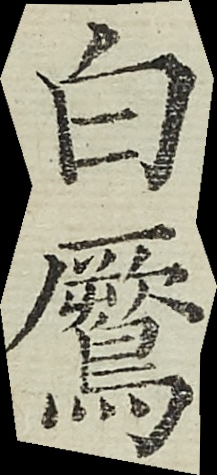白鷢
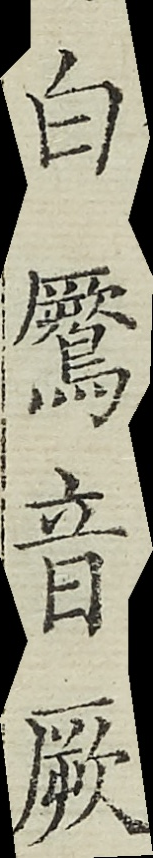白鷢音厥
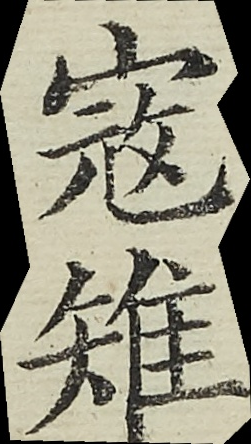寇雉
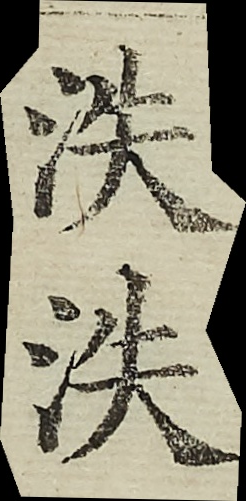泆泆
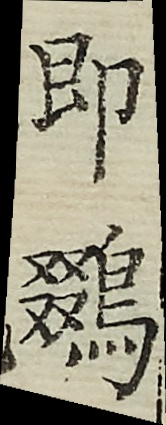即鵽
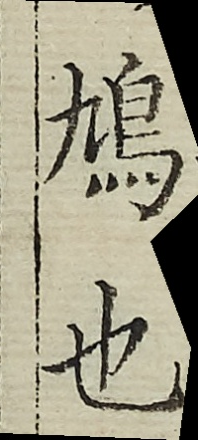鳩也
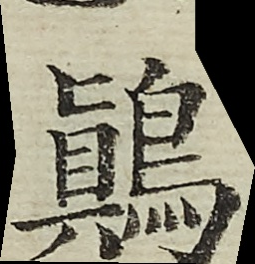鷆
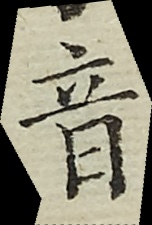音
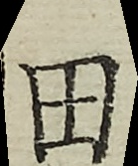田
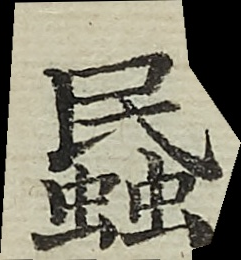蟁
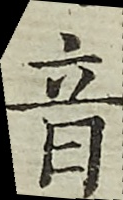音
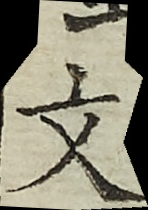文
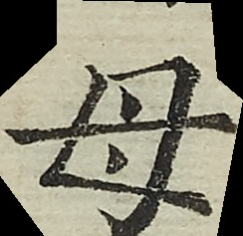母
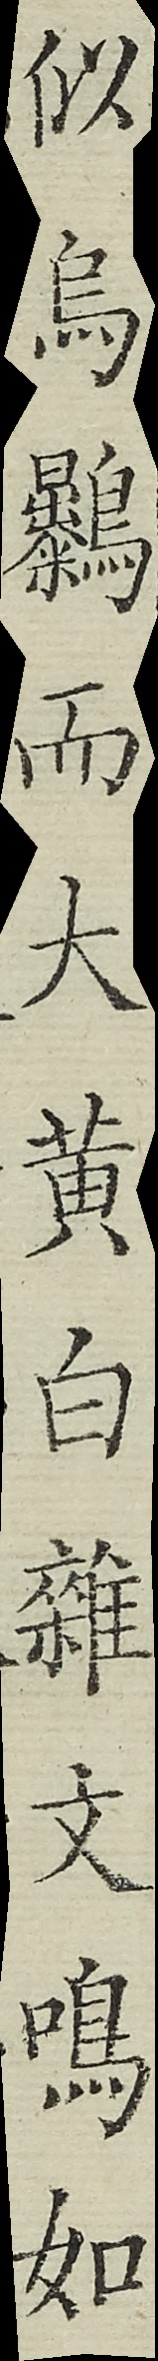似烏鸔而大黃白雜文鳴如
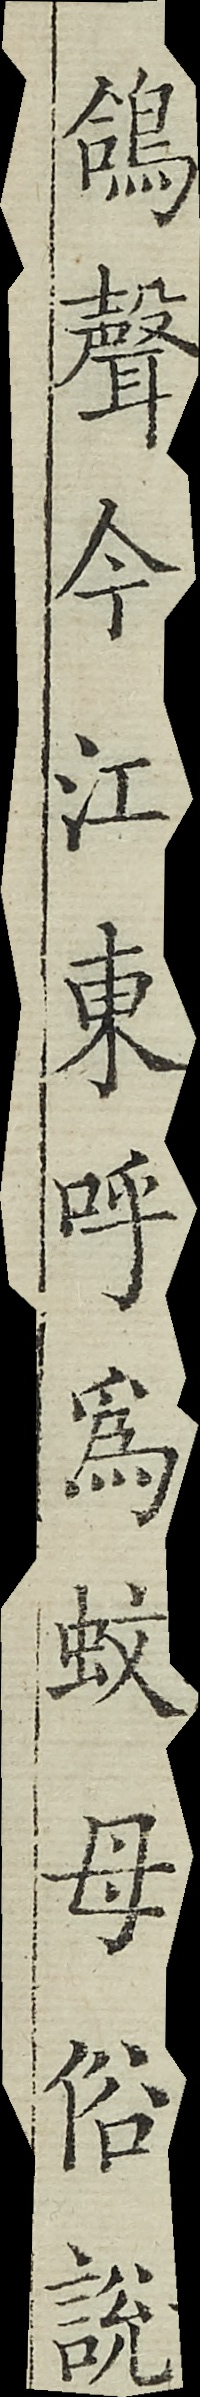鴿聲今江東呼為蚊母俗說
